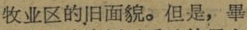牧业区的旧面貌。但足，畢
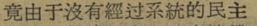竟由于沒有經过系統的民主
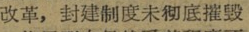改革，封建制度未彻底摧毁
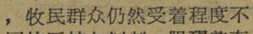，牧民群众仍然受着程度不
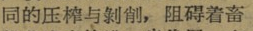同的压榨与剝削，阻碍着畜
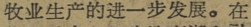牧业生产的进一步发展。在
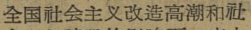全国社会主义改造高潮和社
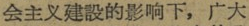会主义建設的影响下，广大
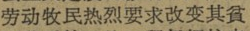劳动牧民热烈要求改变其貧
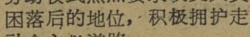困落后的地位，积极拥护走
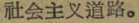社会主义道路。
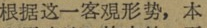根据这一客覌形势，本
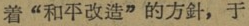着“和平改造”的方针，于
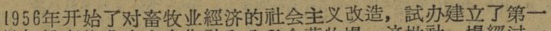1956年开始了对畜牧业經济的社会主义改造，試办建立了第一
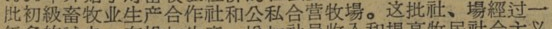批初級畜牧业生产合作社和公私合营牧場。这批社、場經过一
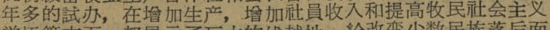年多的試办，在增加生产，增加社員收入和提高牧民社会主义
